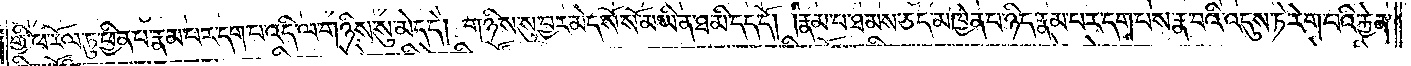གྱི་ཕ་རོལ་ཏུ་ཕྱིན་པ་རྣམ་པར་དག་པ་འདི་ལ་གཉིས་སུ་མེད་དེ། གཉིས་སུ་བྱར་མེད་སོ་སོ་མ་ཡིན་ཐ་མི་དད་དོ། །རྣམ་པ་ཐམས་ཅད་མཁྱེན་པ་ཉིད་རྣམ་པར་དག་པས་རྣ་བའི་འདུས་ཏེ་རེག་པའི་རྐྱེན་
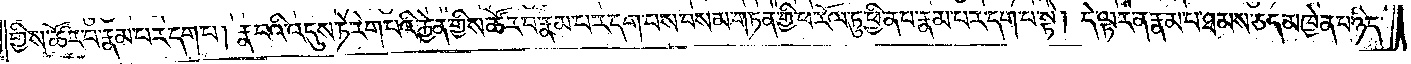གྱིས་ཚོར་བ་རྣམ་པར་དག་པ། རྣ་བའི་འདུས་ཏེ་རེག་པའི་རྐྱེན་གྱིས་ཚོར་བ་རྣམ་པར་དག་པས་བསམ་གཏན་གྱི་ཕ་རོལ་ཏུ་ཕྱིན་པ་རྣམ་པར་དག་པ་སྟེ། དེ་ལྟར་ན་རྣམ་པ་ཐམས་ཅད་མཁྱེན་པ་ཉིད་
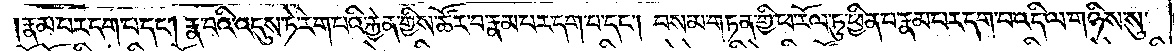རྣམ་པར་དག་པ་དང༌། རྣ་བའི་འདུས་ཏེ་རེག་པའི་རྐྱེན་གྱིས་ཚོར་བ་རྣམ་པར་དག་པ་དང༌། བསམ་གཏན་གྱི་ཕ་རོལ་ཏུ་ཕྱིན་པ་རྣམ་པར་དག་པ་འདི་ལ་གཉིས་སུ་
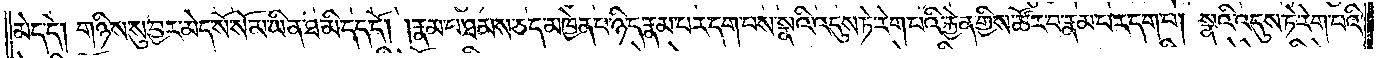མེད་དེ། གཉིས་སུ་བྱར་མེད་སོ་སོ་མ་ཡིན་ཐ་མི་དད་དོ། །རྣམ་པ་ཐམས་ཅད་མཁྱེན་པ་ཉིད་རྣམ་པར་དག་པས་སྣའི་འདུས་ཏེ་རེག་པའི་རྐྱེན་གྱིས་ཚོར་བ་རྣམ་པར་དག་པ། སྣའི་འདུས་ཏེ་རེག་པའི་
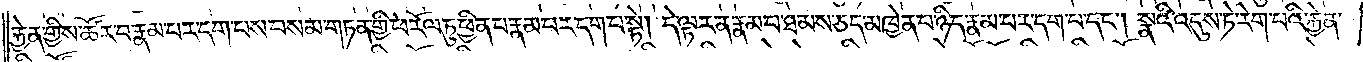རྐྱེན་གྱིས་ཚོར་བ་རྣམ་པར་དག་པས་བསམ་གཏན་གྱི་ཕ་རོལ་ཏུ་ཕྱིན་པ་རྣམ་པར་དག་པ་སྟེ། དེ་ལྟར་ན་རྣམ་པ་ཐམས་ཅད་མཁྱེན་པ་ཉིད་རྣམ་པར་དག་པ་དང༌། སྣའི་འདུས་ཏེ་རེག་པའི་རྐྱེན་
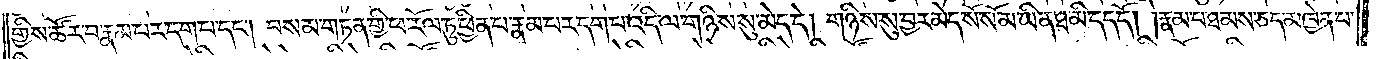གྱིས་ཚོར་བ་རྣམ་པར་དག་པ་དང༌། བསམ་གཏན་གྱི་ཕ་རོལ་ཏུ་ཕྱིན་པ་རྣམ་པར་དག་པ་འདི་ལ་གཉིས་སུ་མེད་དེ། གཉིས་སུ་བྱར་མེད་སོ་སོ་མ་ཡིན་ཐ་མི་དད་དོ། །རྣམ་པ་ཐམས་ཅད་མཁྱེན་པ་
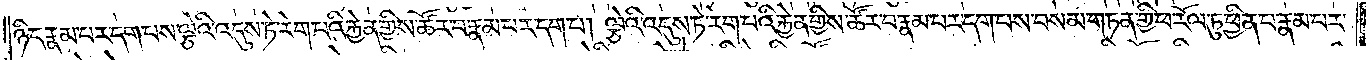ཉིད་རྣམ་པར་དག་པས་ལྕེའི་འདུས་ཏེ་རེག་པའི་རྐྱེན་གྱིས་ཚོར་བ་རྣམ་པར་དག་པ། ལྕེའི་འདུས་ཏེ་རེག་པའི་རྐྱེན་གྱིས་ཚོར་བ་རྣམ་པར་དག་པས་བསམ་གཏན་གྱི་ཕ་རོལ་ཏུ་ཕྱིན་པ་རྣམ་པར་
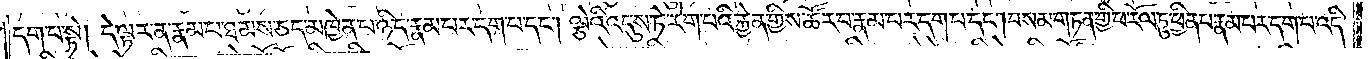དག་པ་སྟེ། དེ་ལྟར་ན་རྣམ་པ་ཐམས་ཅད་མཁྱེན་པ་ཉིད་རྣམ་པར་དག་པ་དང༌། ལྕེའི་འདུས་ཏེ་རེག་པའི་རྐྱེན་གྱིས་ཚོར་བ་རྣམ་པར་དག་པ་དང༌། བསམ་གཏན་གྱི་ཕ་རོལ་ཏུ་ཕྱིན་པ་རྣམ་པར་དག་པ་འདི་
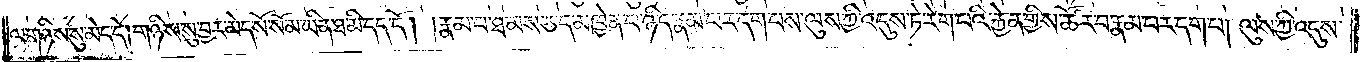ལ་གཉིས་སུ་མེད་དེ། གཉིས་སུ་བྱར་མེད་སོ་སོ་མ་ཡིན་ཐ་མི་དད་དོ། །རྣམ་པ་ཐམས་ཅད་མཁྱེན་པ་ཉིད་རྣམ་པར་དག་པས་ལུས་ཀྱི་འདུས་ཏེ་རེག་པའི་རྐྱེན་གྱིས་ཚོར་བ་རྣམ་པར་དག་པ། ལུས་ཀྱི་འདུས་
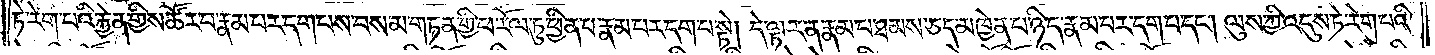ཏེ་རེག་པའི་རྐྱེན་གྱིས་ཚོར་བ་རྣམ་པར་དག་པས་བསམ་གཏན་གྱི་ཕ་རོལ་ཏུ་ཕྱིན་པ་རྣམ་པར་དག་པ་སྟེ། དེ་ལྟར་ན་རྣམ་པ་ཐམས་ཅད་མཁྱེན་པ་ཉིད་རྣམ་པར་དག་པ་དང༌། ལུས་ཀྱི་འདུས་ཏེ་རེག་པའི་
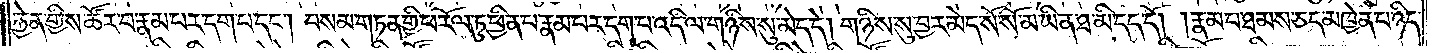རྐྱེན་གྱིས་ཚོར་བ་རྣམ་པར་དག་པ་དང༌། བསམ་གཏན་གྱི་ཕ་རོལ་ཏུ་ཕྱིན་པ་རྣམ་པར་དག་པ་འདི་ལ་གཉིས་སུ་མེད་དེ། གཉིས་སུ་བྱར་མེད་སོ་སོ་མ་ཡིན་ཐ་མི་དད་དོ། །རྣམ་པ་ཐམས་ཅད་མཁྱེན་པ་ཉིད་
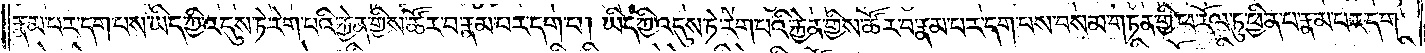རྣམ་པར་དག་པས་ཡིད་ཀྱི་འདུས་ཏེ་རེག་པའི་རྐྱེན་གྱིས་ཚོར་བ་རྣམ་པར་དག་པ། ཡིད་ཀྱི་འདུས་ཏེ་རེག་པའི་རྐྱེན་གྱིས་ཚོར་བ་རྣམ་པར་དག་པས་བསམ་གཏན་གྱི་ཕ་རོལ་ཏུ་ཕྱིན་པ་རྣམ་པར་དག་
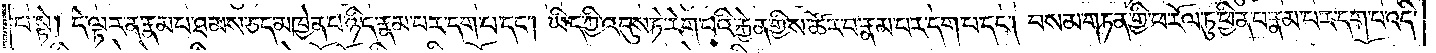པ་སྟེ། དེ་ལྟར་ན་རྣམ་པ་ཐམས་ཅད་མཁྱེན་པ་ཉིད་རྣམ་པར་དག་པ་དང༌། ཡིད་ཀྱི་འདུས་ཏེ་རེག་པའི་རྐྱེན་གྱིས་ཚོར་བ་རྣམ་པར་དག་པ་དང༌། བསམ་གཏན་གྱི་ཕ་རོལ་ཏུ་ཕྱིན་པ་རྣམ་པར་དག་པ་འདི་
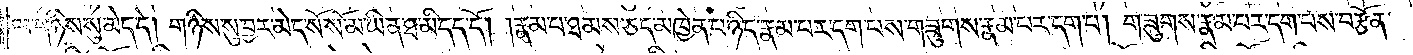ལ་གཉིས་སུ་མེད་དེ། གཉིས་སུ་བྱར་མེད་སོ་སོ་མ་ཡིན་ཐ་མི་དད་དོ། །རྣམ་པ་ཐམས་ཅད་མཁྱེན་པ་ཉིད་རྣམ་པར་དག་པས་གཟུགས་རྣམ་པར་དག་པ། གཟུགས་རྣམ་པར་དག་པས་བརྩོན་
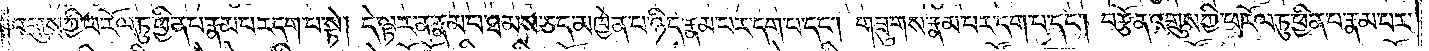འགྲུས་ཀྱི་ཕ་རོལ་ཏུ་ཕྱིན་པ་རྣམ་པར་དག་པ་སྟེ། དེ་ལྟར་ན་རྣམ་པ་ཐམས་ཅད་མཁྱེན་པ་ཉིད་རྣམ་པར་དག་པ་དང༌། གཟུགས་རྣམ་པར་དག་པ་དང༌། བརྩོན་འགྲུས་ཀྱི་ཕ་རོལ་ཏུ་ཕྱིན་པ་རྣམ་པར་
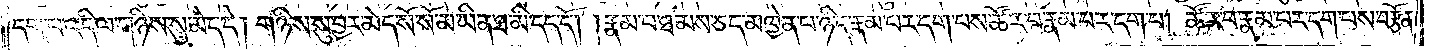དག་པ་འདི་ལ་གཉིས་སུ་མེད་དེ། གཉིས་སུ་བྱར་མེད་སོ་སོ་མ་ཡིན་ཐ་མི་དད་དོ། །རྣམ་པ་ཐམས་ཅད་མཁྱེན་པ་ཉིད་རྣམ་པར་དག་པས་ཚོར་བ་རྣམ་པར་དག་པ། ཚོར་བ་རྣམ་པར་དག་པས་བརྩོན་
